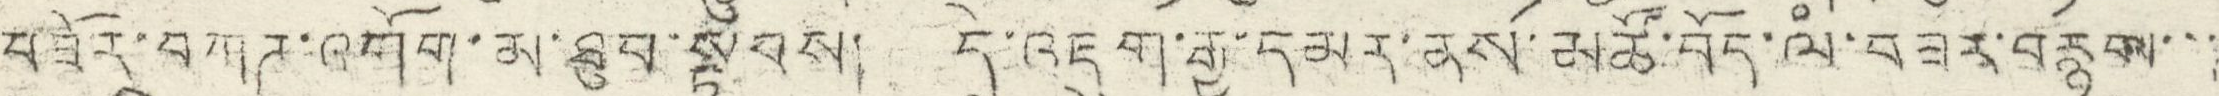བཟོར་བཀཊ་འགོག་མ་ཐུབ་སྟབས། དེ་འཇུག་རྒྱ་དམར་ནས་མཚོ་བོད་ལཾ་བཟར་བརྙལ་་་
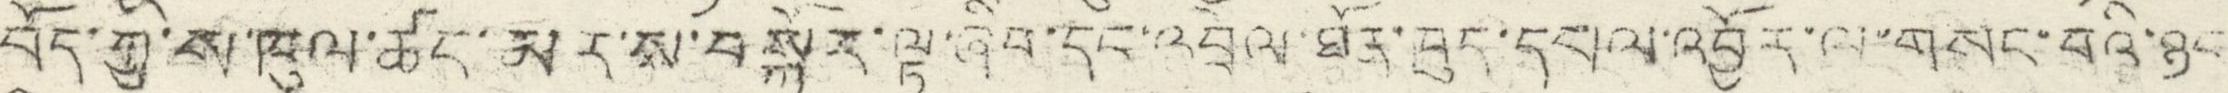བོད་ཀྱི་ས་ཁུལ་ཚང་མར་ས་བསྐོར་ལྟ་ཞིབ་དང་འབྲེལ་ཐོན་ཁུད་དཔལ་འབྱོར་ལ་གསང་བའི་ཉང
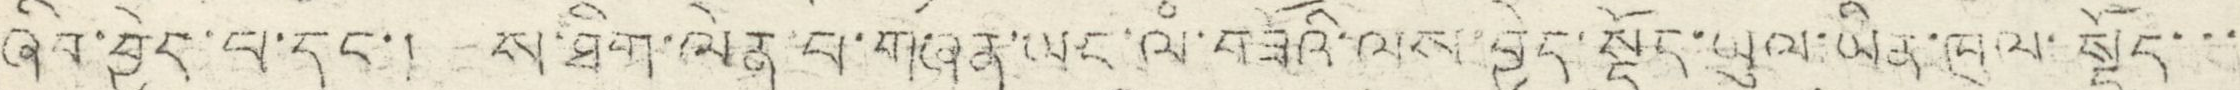ཞིབ་བྱེད་པ་དང་། ས་ཐིག་ལེན་པ་གཞན་ཡང་ལཾ་བཟོའི་ལས་བྱེད་སྡོད་ཡུལ་ཡིན་ཁུལ་སྡོང་་་
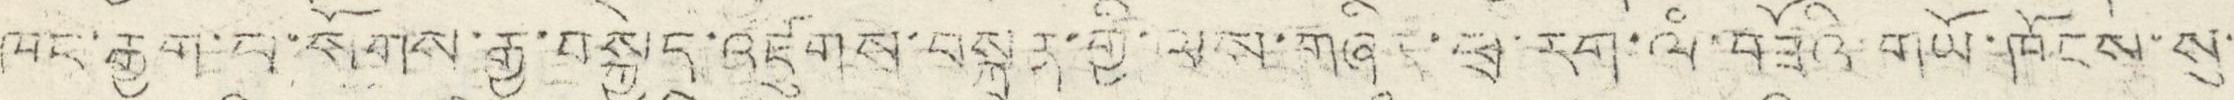ཁང་རྒྱག་པ་སོགས་རྒྱ་བསྐྱེད་འཛུགས་བསྐྲུན་གྱི་ལས་གཞིར་ཕྲ་རག་ལཾ་བཟོའི་གཡོ་ཁོངས་སུ་
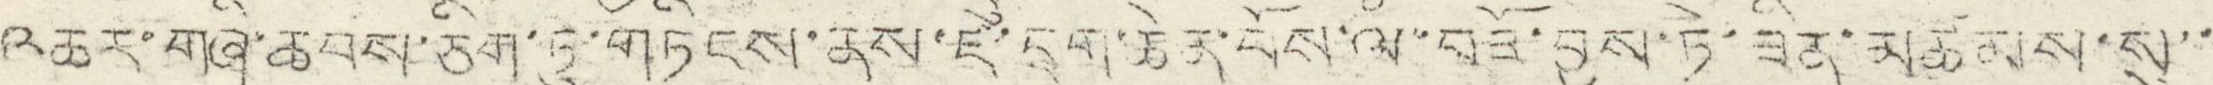འཆར་གཞི་ཆབས་ཅིག་ཏུ་གཏིངས་ནས་ཛ་དྲག་ཆེན་པོས་ལཾ་བཟོའི་བྱས་ཏེ་ཟིན་མཚམས་སུ་་
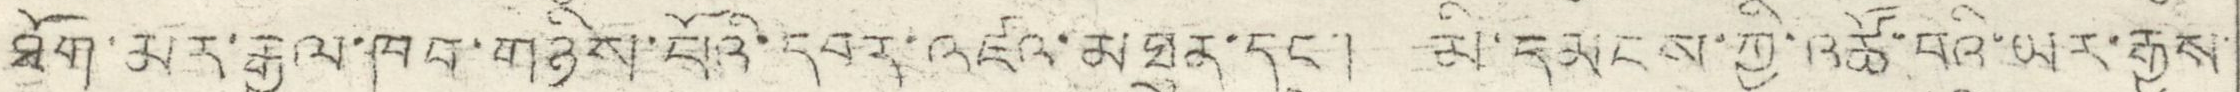ཐོག་མར་རྒྱལ་ཁབ་གཉིས་པོའི་དབར་འཛའ་མཐུན་དང་། མི་དམངས་ཀྱི་འཚོ་བའི་ཡར་རྒྱས་
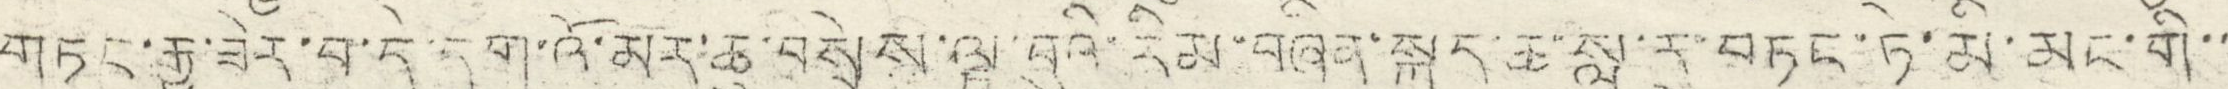གཏང་རྒྱུ་ཟེར་བ་དེ་དག་འོ་མར་ཆུ་བསྲེས་ལྟ་བུའི་རིམ་བཞིན་སྐད་ཆ་སླ་རུ་བཏང་ཏེ་མི་མང་གི་་
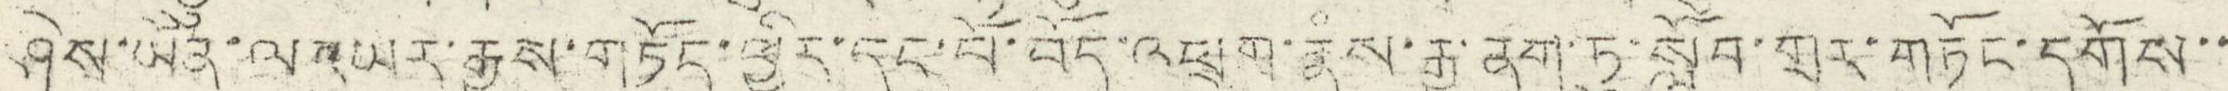ཤེས་ཡོན་ལ་ཡར་རྒྱས་གཏོང་ཕྱིར་དང་པོ་བོད་འཕྲུག་རྣཾས་རྒྱ་ནག་ཏུ་སློབ་གྲར་གཏོང་དགོས་་
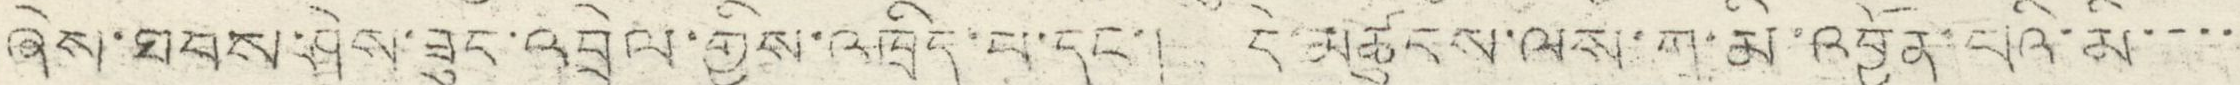ཞེས་ཐབས་ཤེས་ཟུང་འབྲེལ་གྱིས་འཁྲིད་པ་དང་། དེ་མཚུངས་ལས་ཀ་མི་འབྱོན་པའི་མི་་་་
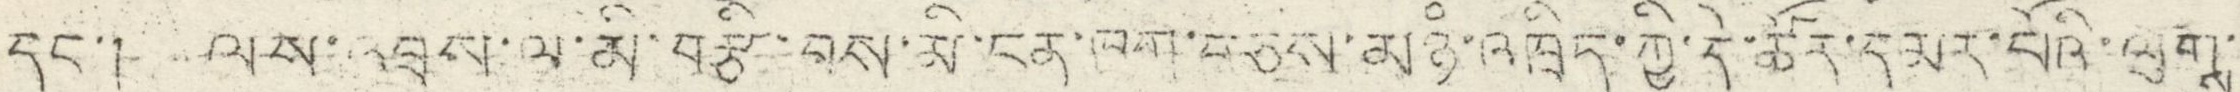དང་། ལས་འབྲས་ལ་མི་བརྩི་བས་མི་ངན་ཁག་བཅས་མཉཾ་འཁྲིད་ཀྱི་དེ་ཚོར་དམར་པོའི་ལུགས་
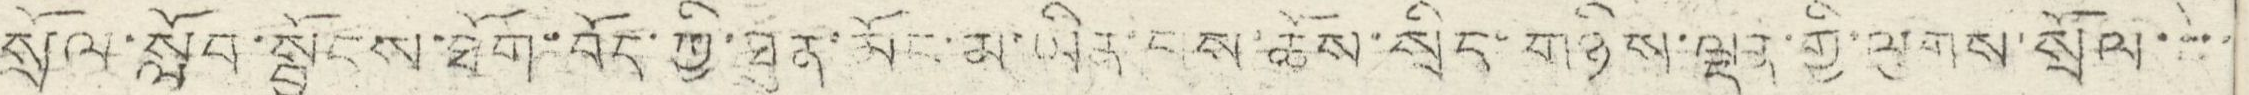སྲོལ་སློབ་སྦྱོངས་ཐོག་བོད་ཀྱི་ཐུན་མོང་མ་ཡིན་པས་ཆོས་སྲིད་གཉིས་ལྡན་གྱི་ལུགས་སྲོལ་་་་
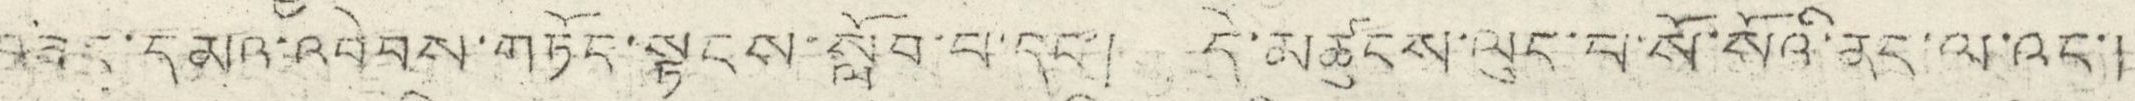བཟང་དམའ་འབེབས་གཏོང་སྟངས་སློབ་པ་དང་། དེ་མཚུངས་ལུང་པ་སོ་སོའི་ནང་ལ་འང་།
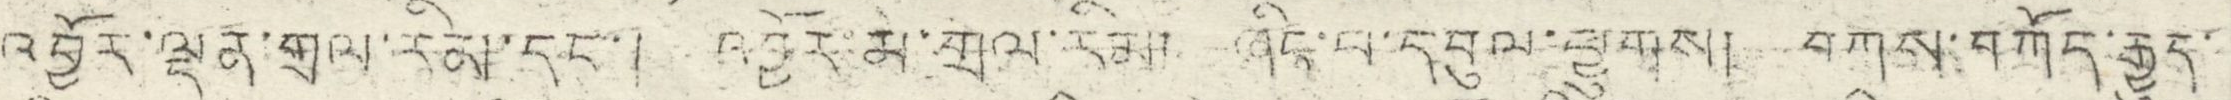འབྱོར་ལྡན་གྲལ་རིམ་དང་། འབྱོར་མ་གྲལ་རིག།། ཞིང་པ་དབུལ་ཕྱུགས། བཀས་བཀོད་རྒྱུད་
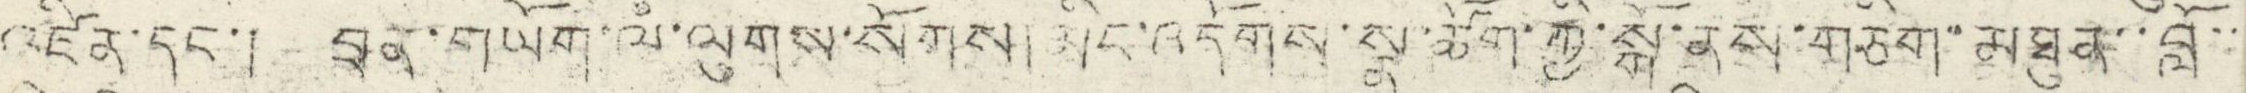འཛིན་དང་། བྲལ་གཡོག་ལཾ་ལུགས་སོགས། མིང་འདོགས་སྣ་ཚོག་ཀྱི་སྒོ་ནས་གཅིག་མཐུན་་བློ་་
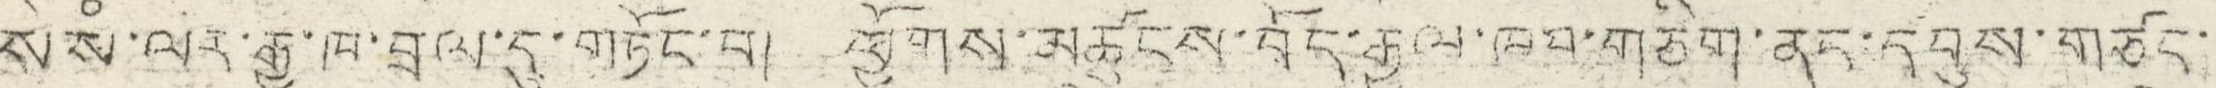སེ་སཾ་ལར་རྒྱ་ཁ་བྲལ་དུ་གཏོང་བ། ཕྱོགས་མཚུངས་བོད་ཀྱི་རྒྱལ་ཁབ་གཅིག་ནང་དབུས་གཙང་
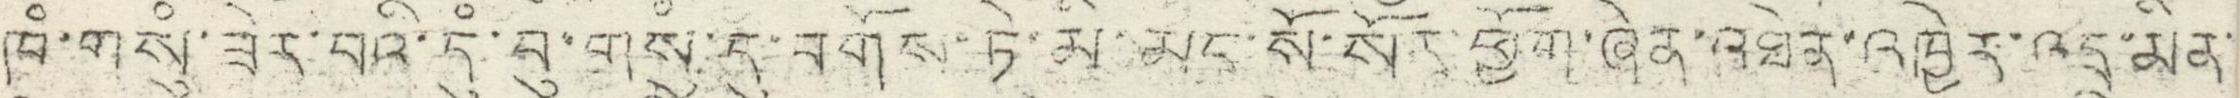ཁཾ་གསུཾ་ཟེར་བའི་དུཾ་བུ་གསུཾ་དུ་བགོས་ཏེ་མི་མང་སོ་སོར་ཕྱོག་ཞེན་འཐེན་འཁྱེར་འདྲ་མིན་
